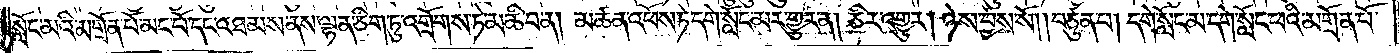སློང་མའི་མགྲོན་པོ་མང་པོ་དང་འཐམས་ནས་ལྷན་ཅིག་ཏུ་འགྲོགས་ཏེ་མཆི་བ་ན། མཚན་འཕོས་ཏེ་དགེ་སློང་མར་གྱུར་ན། ཅིར་འགྱུར། ཉེས་བྱས་སོ། །བཙུན་པ། དགེ་སློང་མ་དགེ་སློང་ཕའི་མགྲོན་པོ་
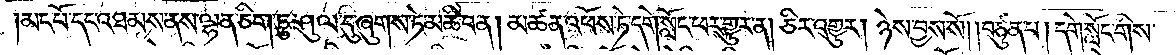མང་པོ་དང་འཐམས་ནས་ལྷན་ཅིག་ཏུ་ཤུལ་དུ་ཞུགས་ཏེ་མཆི་བ་ན། མཚན་འཕོས་ཏེ་དགེ་སློང་ཕར་གྱུར་ན། ཅིར་འགྱུར། ཉེས་བྱས་སོ། །བཙུན་པ། དགེ་སློང་གིས་
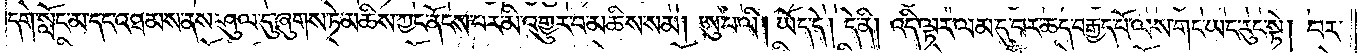དགེ་སློང་མ་དང་འཐམས་ནས་ཤུལ་དུ་ཞུགས་ཏེ་མཆིས་ཀྱང་ནོངས་པར་མི་འགྱུར་བ་མཆིས་སམ། ཨུ་པ་ལི། ཡོད་དེ། དེ་ནི། འདི་ལྟར་ལམ་དུ་བར་ཆད་བརྒྱད་པོ་ལས་གང་ཡང་རུང་སྟེ། བར་
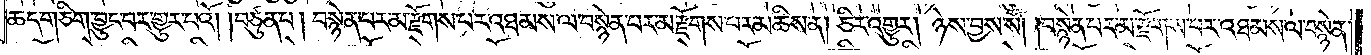ཆད་གཅིག་བྱུང་བར་གྱུར་པའོ། །བཙུན་པ། བསྙེན་པར་མ་རྫོགས་པར་འཐམས་ལ་བསྙེན་པར་མ་རྫོགས་པར་མཆིས་ན། ཅིར་འགྱུར། ཉེས་བྱས་སོ། །བསྙེན་པར་མ་རྫོགས་པར་འཐམས་ལ་བསྙེན་
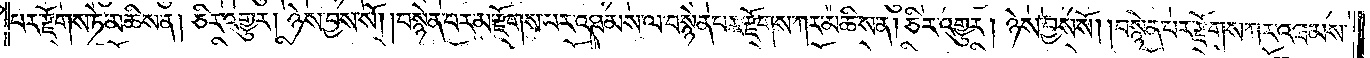པར་རྫོགས་ཏེ་མཆིས་ན། ཅིར་འགྱུར། ཉེས་བྱས་སོ། །བསྙེན་པར་མ་རྫོགས་པར་འཐམས་ལ་བསྙེན་པར་རྫོགས་ཀར་མཆིས་ན། ཅིར་འགྱུར། ཉེས་བྱས་སོ། །བསྙེན་པར་རྫོགས་ཀར་འཐམས་
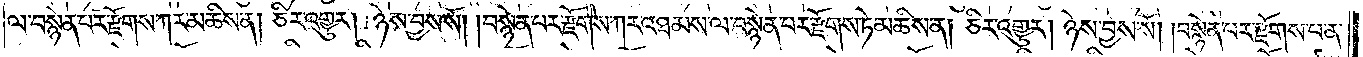ལ་བསྙེན་པར་རྫོགས་ཀར་མཆིས་ན། ཅིར་འགྱུར། ཉེས་བྱས་སོ། །བསྙེན་པར་རྫོགས་ཀར་འཐམས་ལ་བསྙེན་པར་རྫོགས་ཏེ་མཆིས་ན། ཅིར་འགྱུར། ཉེས་བྱས་སོ། །བསྙེན་པར་རྫོགས་པ་ན་
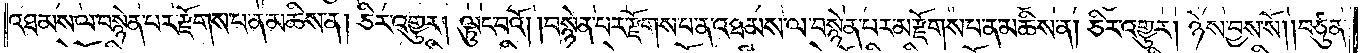འཐམས་ལ་བསྙེན་པར་རྫོགས་པ་ན་མཆིས་ན། ཅིར་འགྱུར། ལྟུང་བའོ། །བསྙེན་པར་རྫོགས་པ་ན་འཐམས་ལ་བསྙེན་པར་མ་རྫོགས་པ་ན་མཆིས་ན། ཅིར་འགྱུར། ཉེས་བྱས་སོ། །བཙུན་
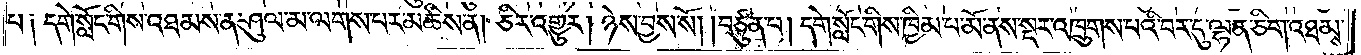པ༑ དགེ་སློང་གིས་འཐམས་ན་ཤུལ་མ་ལགས་པར་མཆིས་ན། ཅིར་འགྱུར། ཉེས་བྱས་སོ། །བཙུན་པ། དགེ་སློང་གིས་ཁྱིམ་པ་མོ་ནས་སྔར་འཁྲུགས་པའི་བར་དུ་ལྷན་ཅིག་ཏུ་འཐམས་
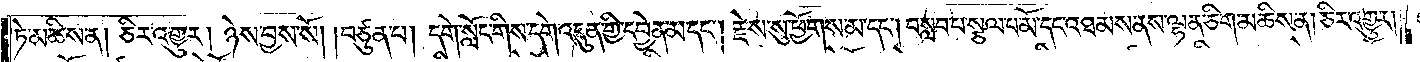ཏེ་མཆིས་ན། ཅིར་འགྱུར། ཉེས་བྱས་སོ། །བཙུན་པ། དགེ་སློང་གིས་དགེ་འདུན་གྱིས་དབྱེན་མ་དང༌། །རྗེས་སུ་ཕྱོགས་མ་དང༌། བསླབ་པ་སྩལ་པ་མོ་དང་འཐམས་ནས་ལྷན་ཅིག་མཆིས་ན། ཅིར་འགྱུར་
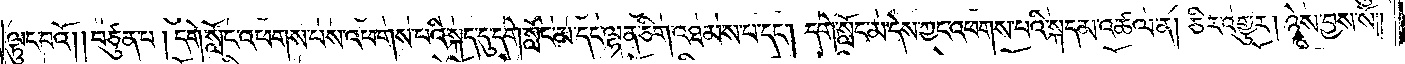ལྟུང་བའོ། །བཙུན་པ། དགེ་སློང་འཕགས་པས་འཕགས་པའི་སྐད་དུ་དགེ་སློང་མ་དང་ལྷན་ཅིག་འཐམས་པ་དང༌། དགེ་སློང་མ་དེས་ཀྱང་འཕགས་པའི་སྐད་མ་འཚལ་ན། ཅིར་འགྱུར། ཉེས་བྱས་སོ། །
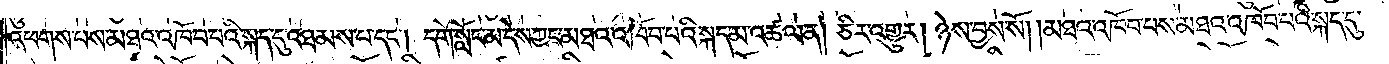འཕགས་པས་མཐའ་འཁོབ་པའི་སྐད་དུ་འཐམས་པ་དང༌། དགེ་སློང་མ་དེས་ཀྱང་མཐའ་འཁོབ་པའི་སྐད་མ་འཚལ་ན། ཅིར་འགྱུར། ཉེས་བྱས་སོ། །མཐའ་འཁོབ་པས་མཐའ་འཁོབ་པའི་སྐད་དུ་
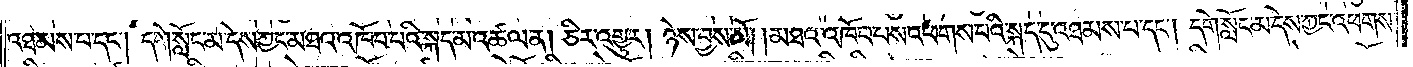འཐམས་པ་དང༌། དགེ་སློང་མ་དེས་ཀྱང་མཐའ་འཁོབ་པའི་སྐད་མ་འཚལ་ན། ཅིར་འགྱུར། ཉེས་བྱས་སོ། །མཐའ་འཁོབ་པས་འཕགས་པའི་སྐད་དུ་འཐམས་པ་དང༌། དགེ་སློང་མ་དེས་ཀྱང་འཕགས་
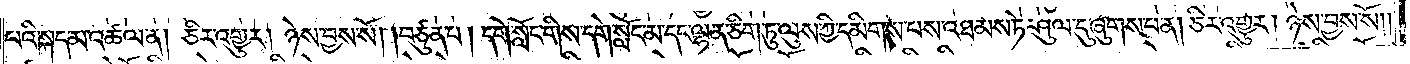པའི་སྐད་མ་འཚལ་ན། ཅིར་འགྱུར། ཉེས་བྱས་སོ། །བཙུན་པ། དགེ་སློང་གིས་དགེ་སློང་མ་དང་ལྷན་ཅིག་ཏུ་ལུས་ཀྱི་དམིགས་པས་འཐམས་ཏེ་ཤུལ་དུ་ཞུགས་པ་ན། ཅིར་འགྱུར། ཉེས་བྱས་སོ༎
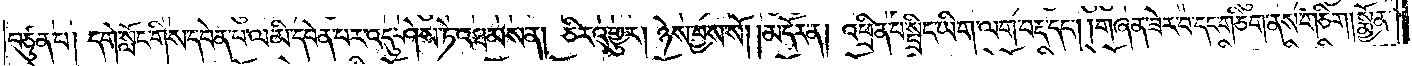བཙུན་པ། དགེ་སློང་གིས་དབེན་པ་ལ་མི་དབེན་པར་འདུ་ཤེས་ཏེ་འཐམས་ན། ཅིར་འགྱུར། ཉེས་བྱས་སོ། །མདོར་ན། འཕྲིན་པ་སྤྲིང་ཡིག་ལག་བརྡ་དང༌། །གཞན་ཟེར་བ་དང་གཅིག་ནས་གཅིག །སྨྱོན་
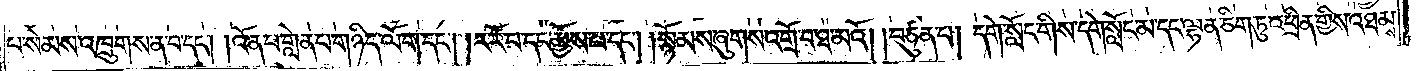པ་སེམས་འཁྲུགས་ན་བ་དང༌། །འོན་པ་གླེན་པ་གཉིད་ལོག་དང༌། །ར་རོ་བ་དང་མྱོས་པ་དང༌། །སྙོམས་ཞུགས་འགྲོ་བ་ཐ་མའོ། །བཙུན་པ། དགེ་སློང་གིས་དགེ་སློང་མ་དང་ལྷན་ཅིག་ཏུ་འཕྲིན་གྱིས་འཐམས་
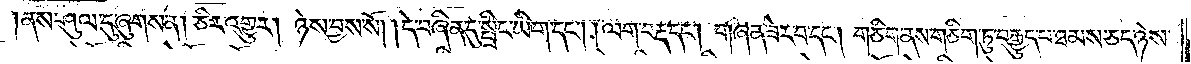།ནས་ཤུལ་དུ་ཞུགས་ན། ཅིར་འགྱུར། ཉེས་བྱས་སོ། །དེ་བཞིན་དུ་སྤྲིང་ཡིག་དང༌། ལག་བརྡ་དང༌། གཞན་ཟེར་བ་དང༌། གཅིག་ནས་གཅིག་ཏུ་བརྒྱུད་པ་ཐམས་ཅད་ཉེས་
